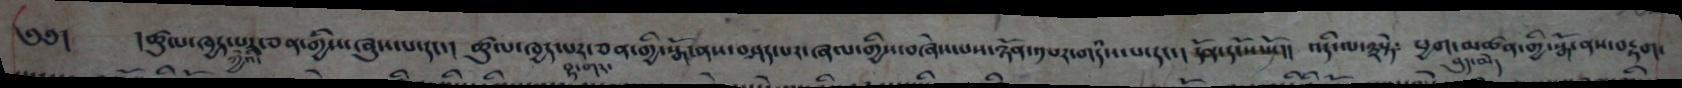༄༅།  །ཚུལ་ཁྱད་པར་ཅན་གྱིས་ཞུས་པ་དང་།  ཚུལ་ཁྱད་པར་ཅན་གྱི་སྒོ་ནས་བཤད་པར་ཞལ་གྱིས་བཞེས་པས་ཉོན་༡པར་གདཾས་པ་དང་།  དོན་དངོས་སོ།།  འདི་ལ་༣སྟེ༴  ཕྱག་མཚན་གྱི་སྒོ་ནས་བརྟག་
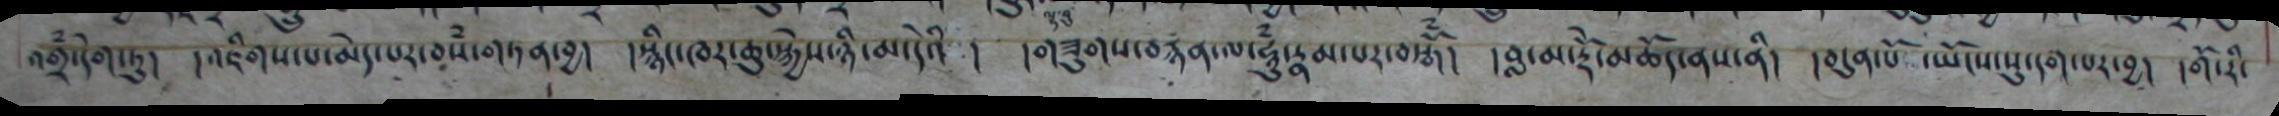འགྲཾ་དེག་ཏུ། །འཇིགས་པ་མེད་པར་བསཾ་གཏན་བྱ། །སྙིང་ཁར་ཆུ་སྐྱེས་ཉི་མ་དེའི ། །གཟུགས་བརྙན་ལ་ཧཱུཾ་རྣམ་པར་བསྒོཾ། །བླ་མ་རྡོེ་མཆོད་ནས་ནི། །བདུན་པོ ་ཡོངས་སུ་དག་པར་བྱ། །གོ་རི་
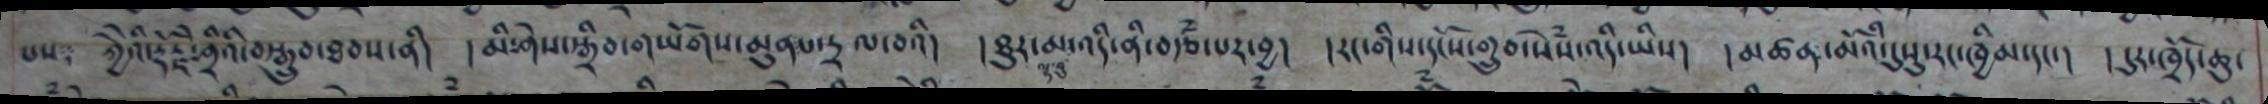པས ཀྱཻའི་རྡོ་རྗེ་ཤྲིའི་བསྒྲུབ་ཐབས་ནི། །མི་ཤེས་སྒྲིབ་གཡོགས་མུན་པ་དྲལ་བའི། །ཐུར་མ་འདི་ནི་བརྩཾ་པར་བྱ། །རང་གིས་དངོས་གྲུབ་སེཾས་འདི་ཡིས། །མཚན་མོའི་དུསུ་རང་ཁྱིམ་དང་། །དུར་ཁྲོད་ཆུ་
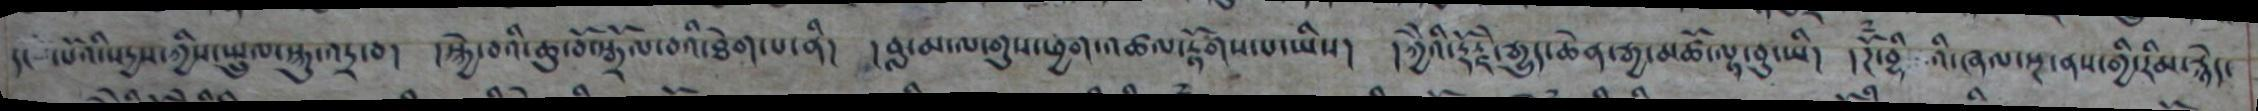དང  ་པོའི་བརྱས་ཀྱིས་སྤུལ་སྐུ་འདྲ་བ།  །སྐྱེ་བའི་ཆུ་བོ་སྒྲོལ་བའི་ཐེག་པ་ནི། །བླ་མ་ལ་གུས་ཕྱག་འཚལ་རྟོགས་པ་ཡིས།  ཀྱེེའི་རྡོ་རྗེ་རྒྱུད་ཆེན་རྒྱ་མཚོ་ལྟ་བུ་ཡི།  །དོཾ་བྷིའི་ཞལ་སྔ་ནས་གྱི་རིམ་རྙེད་
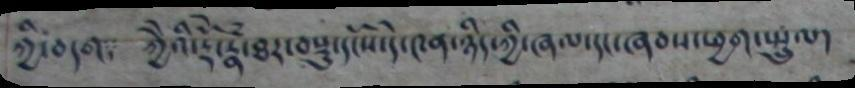ཀྱི་བདག༴  ཀྱེེའི་རྡོེ་རྣཾ་ཐར་བསྡུ་དངོས་དེ་༤ན་ཉིད་ཀྱི་ཞལ་དང་ཞབས་ཕྱག་སྤྲུལ།
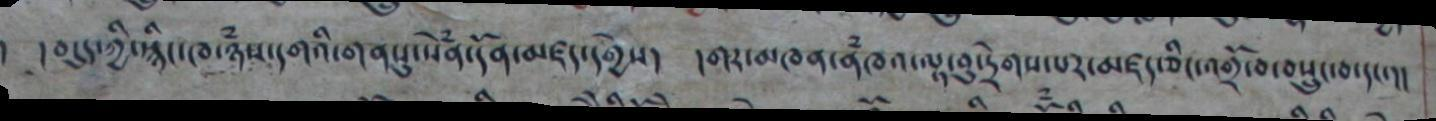།  བདུད་ཀྱི་སྙིད་ཁ་ཉཾས་དགའི་གནསུ་སེཾན་དོག་མཛད་དགྱེས།  དགར་མཁན་ནཾཁའ་ལྟ་བུ་དྲེགས་པར་མཛད་ཅིང་འགྲོ་བ་བསྲུང་བ་དང་།།
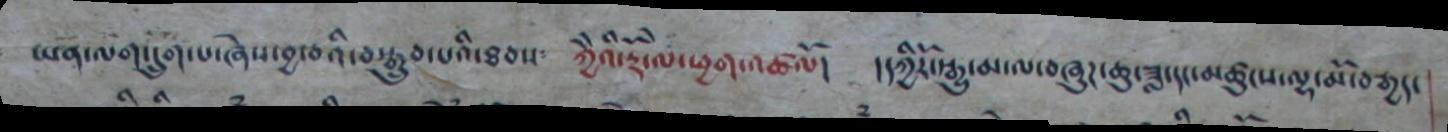ཡན་ལག་དྲུག་པ་ཞེས་བྱ་བའི་བ་རྒྱུབ་པའི་ཐམས༴  ཀྱེེའི་རྡོེ་ལ་ཕྱག་འཚལོ།  །དཀྱིརོ་སྒྱུ་མ་ལ་བཞུད་ཆུ་ཟླ་དང་མཚུངས་ལྷ་མོ་བརྒྱད་
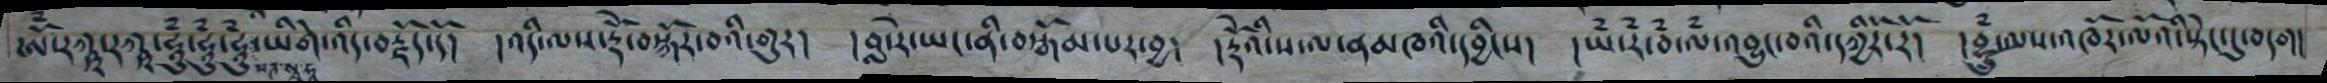ཨོྃ་རཀྵ་རཀྵ་ཧཱུྃ་ཧཱུྃ་ཧཱུྃ་ཕཌ་སྭ་ཧཱ་ཡིགེ་འདི་བརྗོད་དོ།  །འདི་ལས་རྡོེ་བསྐོར་བའི་གུར།  །བླ་རེ་ཡང་ནི་བསྒོམ་པར་བྱ།  །རྡོེ་ས་ལ་ནམཁའི་དབྱིངས།  །ཡྃ་རྃ་བྃ་ལྃ་འབྱུང་བའི་དཀྱིརོ་རོ།  །བྷྲུྃ་ལས་འཁོར་ལོའི་སྟེང་དུ་བདག།
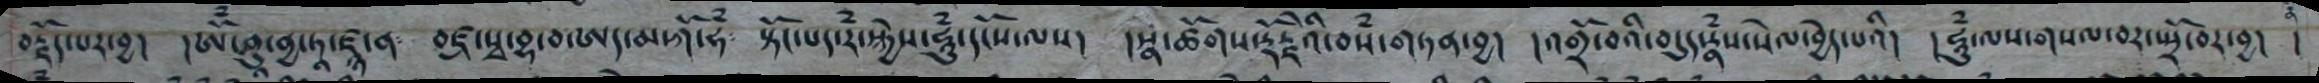བརྗོད་པར་བྱ། །ཨོཾ་ཤུ་ནྱ་ཏཱ་ཛྙ་ན༴ བཛྲ་སྭ་བྷ་བ་ཨད་མ་ཀོ་ཧཾ༴ སྟོང་པད་རཾ་སྐྱེས་ཧཱུཾ་དངོས་ལས། །སྣ་ཚོགས་རྡོ་རྗེའི་བསཾ་གཏན་བྱ། །འགྲོ་བའི་བདུད་རྣཾས་སེལ་བྱེད་པའི། །ཧཱུཾ་ལས་གསལ་བར་སྤྲོ་བར་བྱ། །
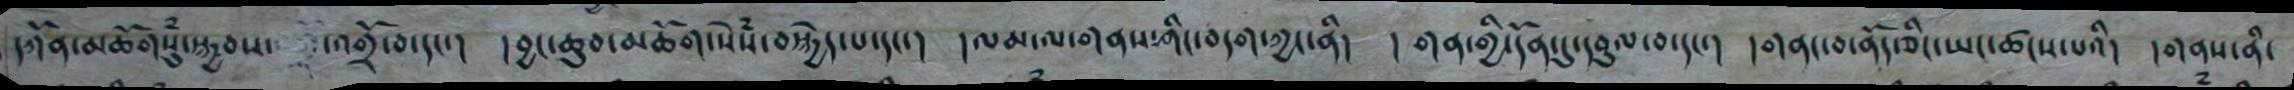དཀོན་མཆོགསུཾ་སྐྱབས་ འགྲོ་བ་དང་། །བྱང་ཆུབ་མཆོག་སེཾས་བསྐྱེད་པ་དང་། །ལམ་ལ་གནས་ཤིང་བདག་ཀྱང་ནི། །གན་གྱི་དོན་དུ་དབུལ་བ་དང་། །གནས་བ་ནོད་ཅིང་ཡང་ཚངས་པའི། །གནས་ནི་
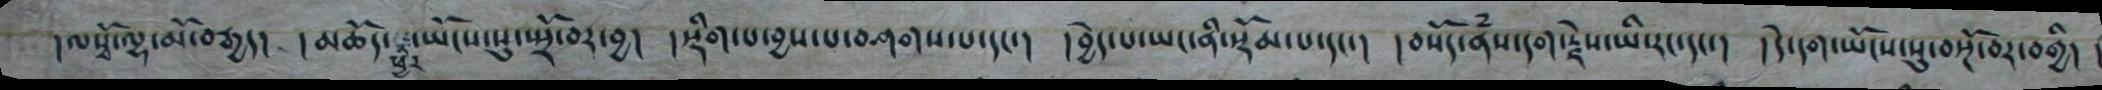།ལསྭོ་ལྷ་མོ་བརྒྱད།  །མཆོད་ཕྱིར་ཡོངས་སུ་སྤྲོ་བར་བྱ།  །སྡིག་པ་བྱས་པ་བཤགས་པ་དང་།  །བྱེད་པ་ཡང་ནི་སྡོམ་པ་དང་།  །བསོད་ནཾས་དག་རྗེས་ཡི་རང་དང་།  །དེ་དག་ཡོངས་སུ་བསྔོ་བར་བགྱི།
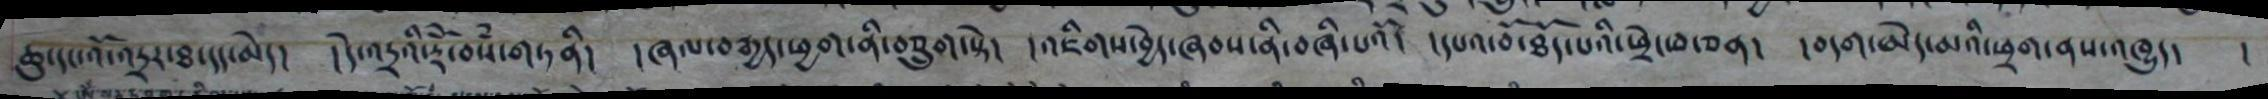ཆུ་དང་འོ་འདྲར་ཐ་དད་མེད། །དེ་འདྲའི་རྡོེ་བསཾ་གཏནི། །ཞལ་བརྒྱད་ཕྱག་ནི་བཅྲུག་སྟེ། །འཇིགས་བྱེད་ཞབས་ནི་བཞི་པའོ། །དཔའ་བོ་ཐོད་པའི་ཕྲེང་བ་ཅན། །བདག་མེད་མའི་ཕྲག་ནས་འཁྱུད། །
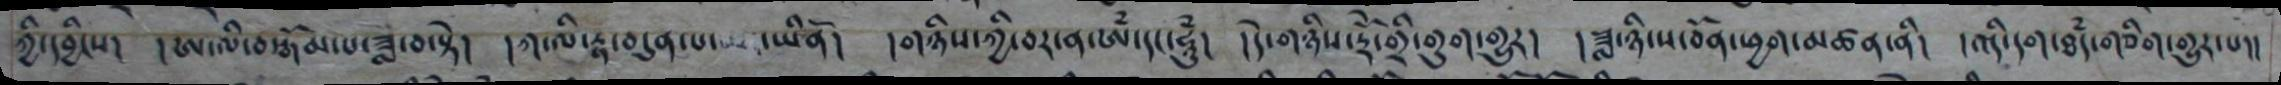ཀྱི་དབྱིངས། །ཨ་ལི་བསྒོམ་པ་ཟླ་བ་སྟེ། །ཀ་ལི་རྣ་བདུན་པ་ ཡིནོ། །གཉིས་ཀྱི་བར་ན་ཨཾ་དང་ཧཱུཾ། །དེ་གཉིས་རྡོེ་གྲི་གུག་གྱུར། །ཟླ་ཉི་ས་བོན་ཕྱག་མཚན་ནི། །འདི་དག་ཐཾད་གཅིག་གྱུར་པ།།
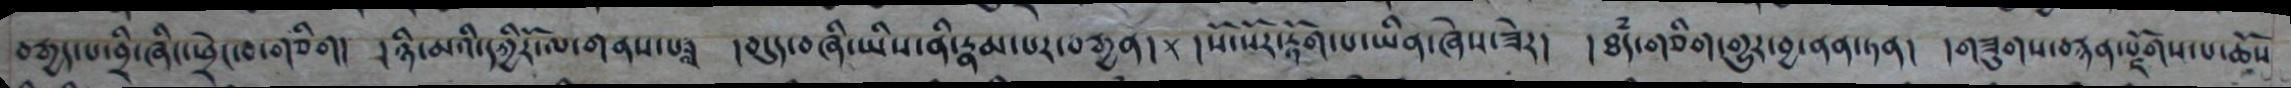བརྒྱད་པ་བྲི་ཞིང་ཕྲེང་བ་གཅིག། །ཉི་མའི་དཀྱིོར་ལ་གནས་པ། །བདུད་བཞི་ཡིས་ནི་རྣམ་པར་བརྒྱན། །སོ་སོར་རྟོག་པ་ཡིན་ཞེས་ཟེར། །ཐཾད་གཅིག་གྱུར་བྱ་ནན་ཏན། །གཟུགས་བརྙན་སྫོགས་པ་ཆོས
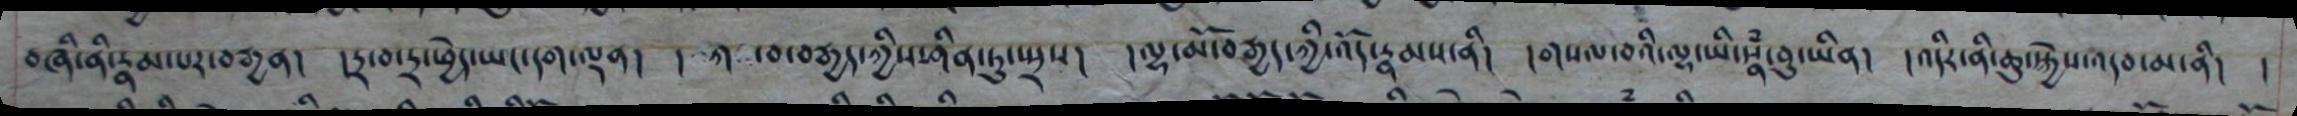བཞི་ནི་རྣམ་པར་བརྒྱན། །དྲ་བ་དྲ་ཕྱེད་ཡང་དག་ལྡན། ། ཀ ་བ་བརྒྱད་ཀྱིས་ཤིན་ཏུ་སྤྲས། །ལྷ་མོ་བརྒྱད་ཀྱི་འོད་རྣམས་ནི། །གསལ་བའི་ལྷ་ཡི་སྙཾ་བུ་ཡིན། །འདིར་ནི་ཆུ་སྐྱེས་འདབ་མ་ནི། །
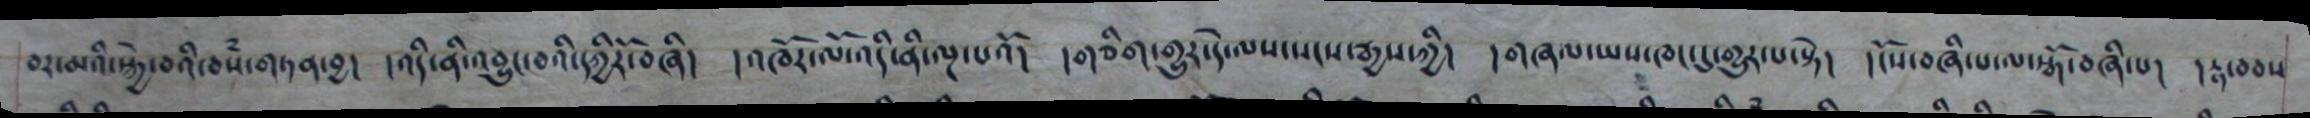བར་མའི་སྐྱེ་བའི་བསཾ་གཏན་བྱ། །འདི་ནི་འབྱུང་བའི་དཀྱིོར་བཞི། །འཁོར་ལོ་འདི་ནི་ལྔ་པའོ། །གཅིག་གྱུར་དེ་ལས་སངས་རྒྱས་ཀྱི། །གཞལ་ཡས་ཁང་དུ་གྱུར་པ་སྟེ། །ངོས་བཞི་པ་ལ་སྒོ་བཞི་པ། །རྟ་བབས
